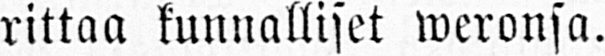rittaa kunnalliset weronsa.
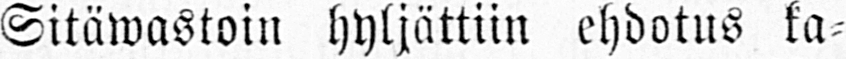Sitäwastoin hyljättiin ehdotus ka-
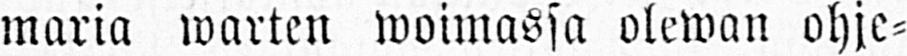maria warten woimassa olewan ohje-
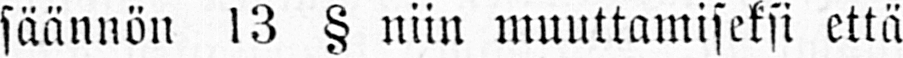säännön 13 § niin muuttamiseksi että
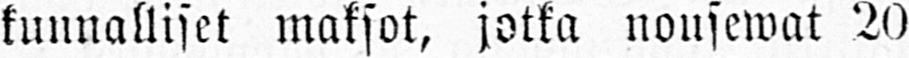kunnalliset maksot, jotka nousewat 20
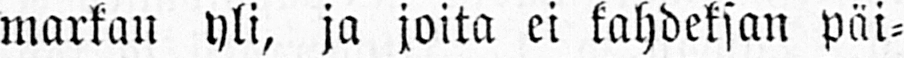markan yli, ja joita ei kahdeksan päi-
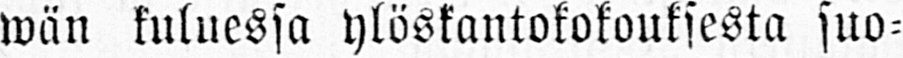wän kuluessa ylöskantokokouksesta suo-
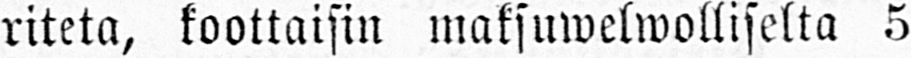riteta, koottaisin maksuwelwolliselta 5
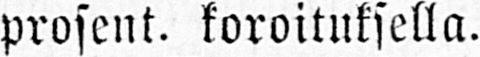prosent. koroituksella.
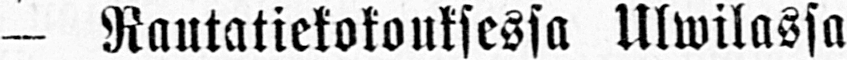— Rautatiekokouksessa Ulwilassa
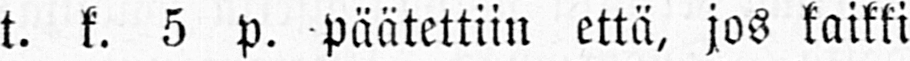t. k. 5 p. päätettiin että, jos kaikki
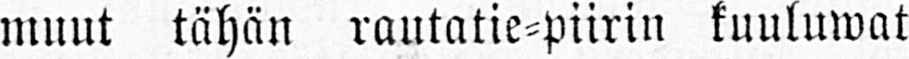muut tähän rautatie-piirin kuuluwat
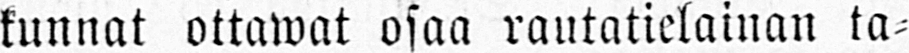kunnat ottawat osaa rautatielainan ta-
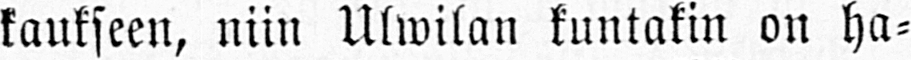kaukseen, niin Ulwilan kuntakin on ha-
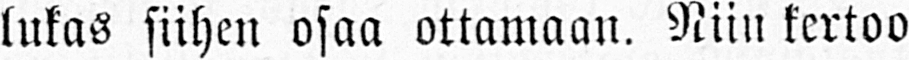lukas siihen osaa ottamaan. Niin kertoo
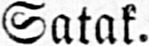Satak.
